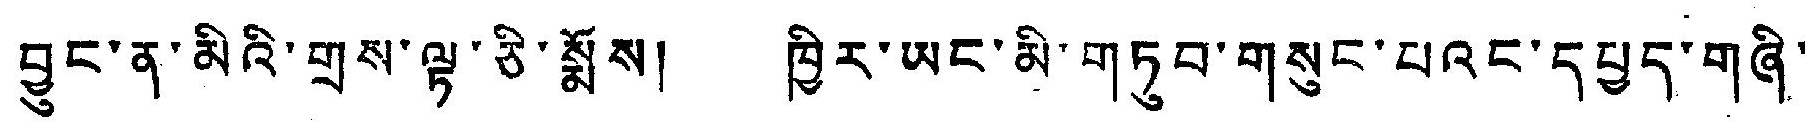བྱུང་ན་མིའི་གྲས་ལྷ་ཅི་སྨོས། ཁྱིར་ཡང་མི་གཏུབ་གསུང་པའང་དཔྱད་གཞི་
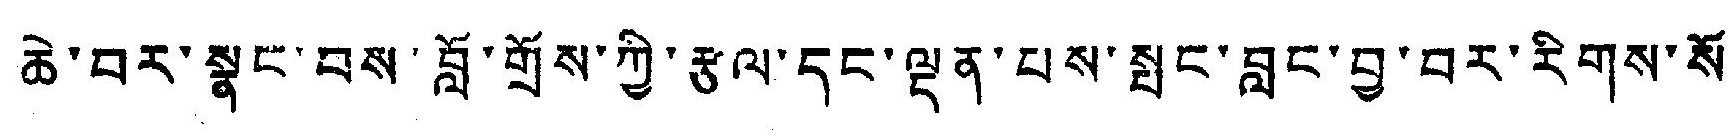ཆེ་བར་སྣང་བས་བློ་གྲོས་ཀྱི་རྩལ་དང་ལྡན་པས་སྤང་བླང་བྱ་བར་རིགས་སོ།
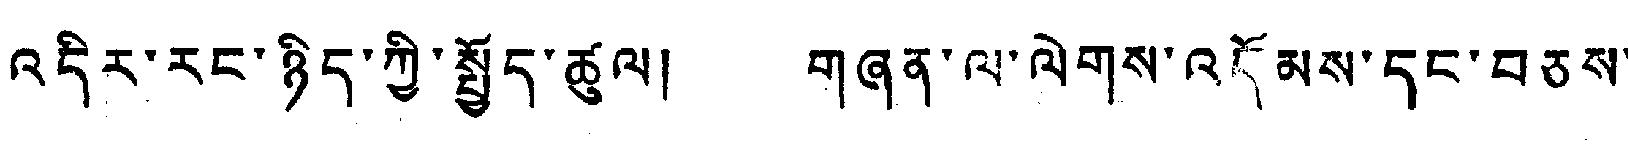འདིར་རང་ཉིད་ཀྱི་སྤྱོད་ཚུལ། གཞན་ལ་ལེགས་འདོམས་དང་བཅས་
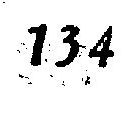134
